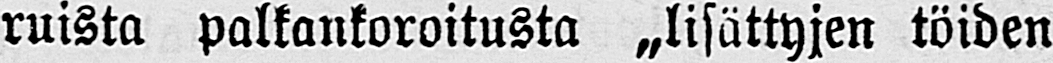ruista palkankoroitusta „lisättyjen töiden
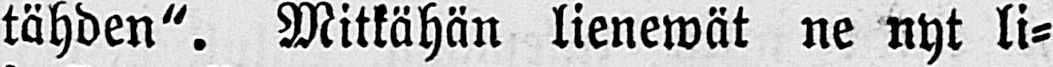tähden". Mitkähän lienewät ne nyt li-
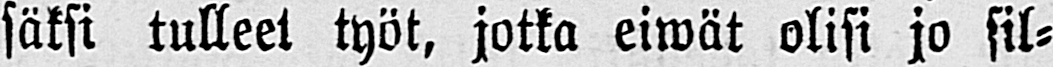säksi tulleet työt, jotka eiwät olisi jo sil-
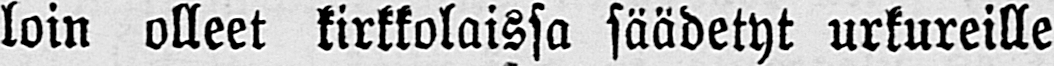loin olleet kirkkolaissa säädetyt urkureille
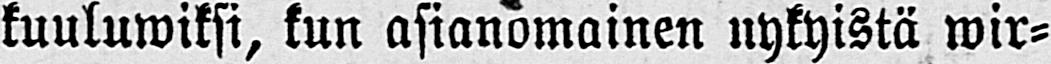kuuluwiksi, kun asianomainen nykyistä wir-
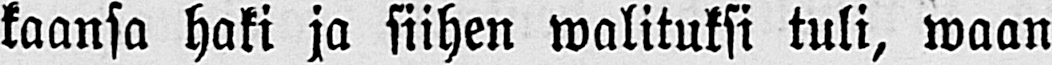kaansa haki ja siihen walituksi tuli, waan
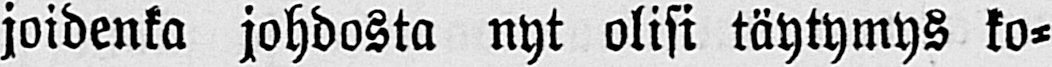joidenka johdosta nyt olisi täytymys ko-
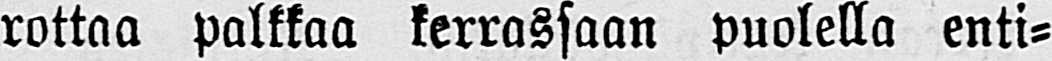rottaa palkkaa kerrassaan puolella enti-
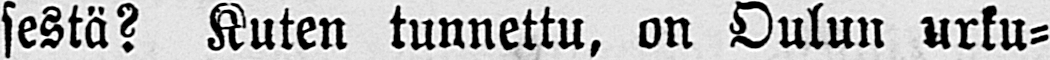sestä? Kuten tunnettu, on Oulun urku-
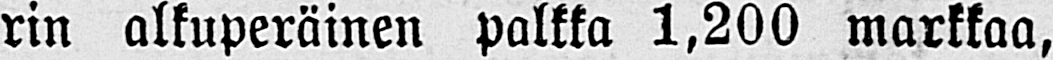rin alkuperäinen palkka 1,200 markkaa,
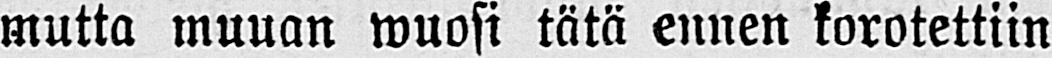mutta muuan wuosi tätä ennen korotettiin
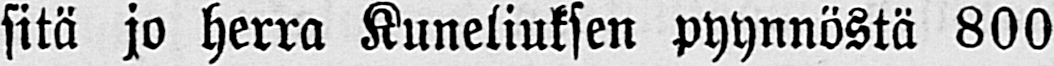sitä jo herra Kuneliuksen pyynnöstä 800
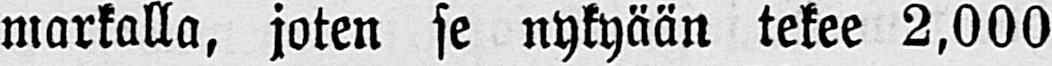markalla, joten se nykyään tekee 2,000
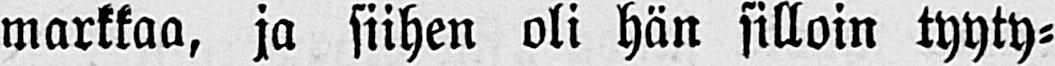markkaa, ja siihen oli hän silloin tyyty-
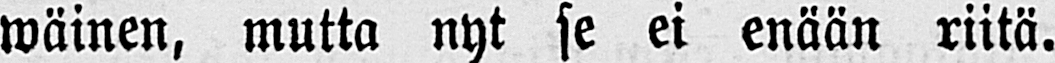wäinen, mutta nyt se ei enään riitä.
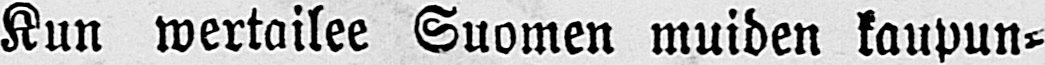Kun wertailee Suomen muiden kaupun-
